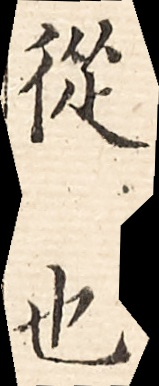從也
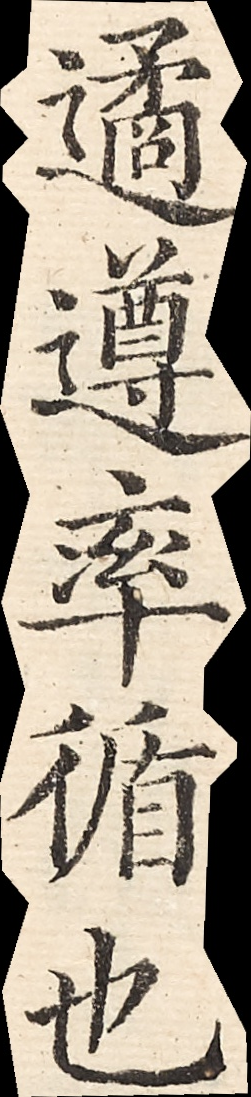遹遵率循也
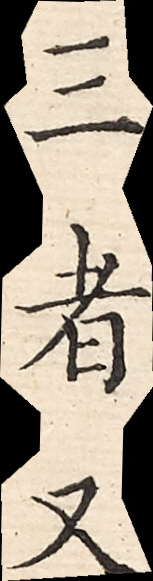三者又
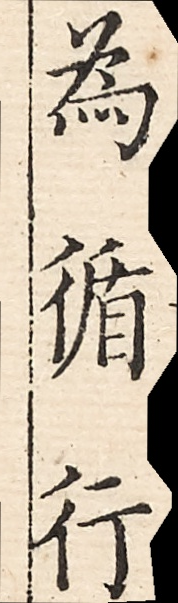為循行
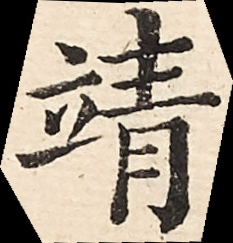靖
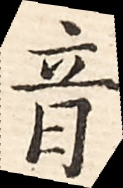音
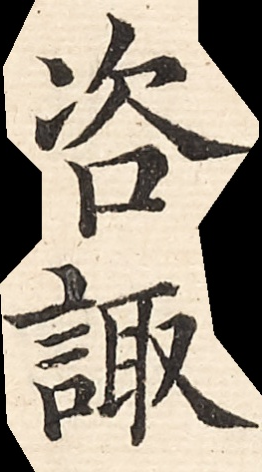咨諏
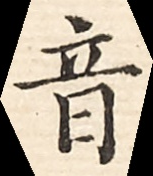音
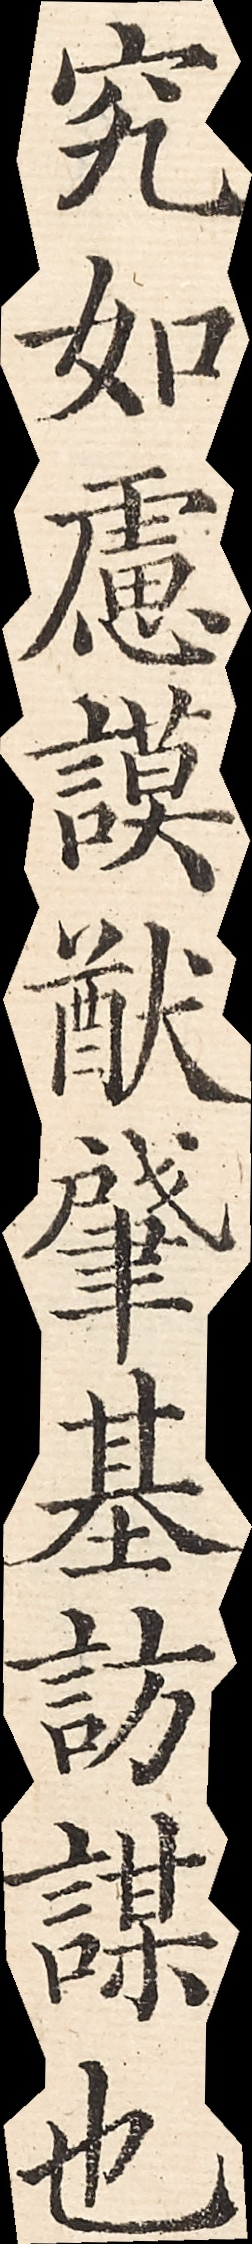究如慮謨猷肈基訪謀也
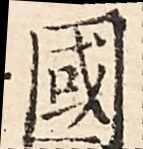國
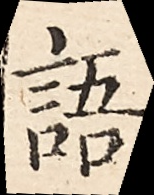語
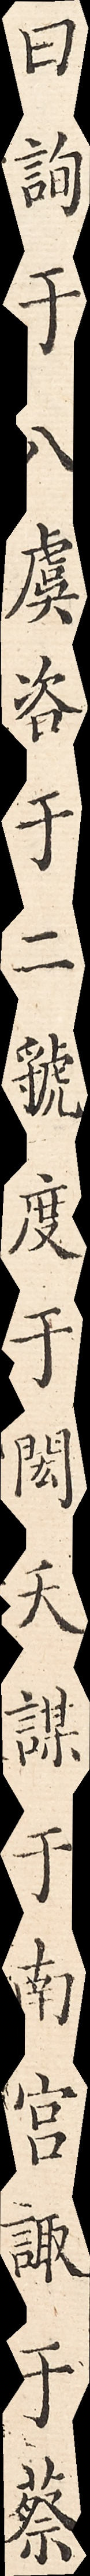曰詢于八虞咨于二虢度于閎夭謀于南宮諏于蔡
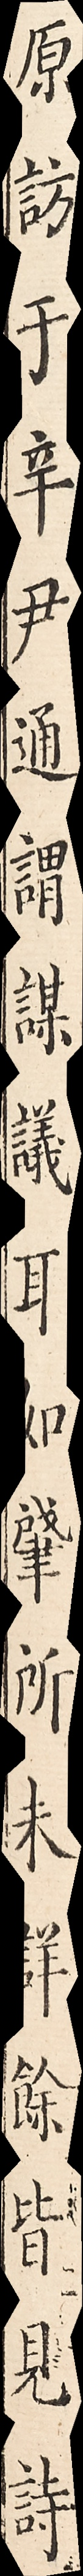原訪于辛尹通謂謀議耳如肈所未詳餘皆見詩
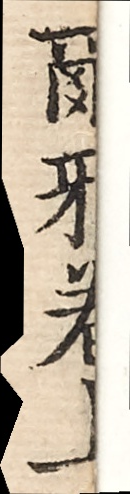爾雅卷一
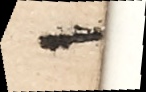一
